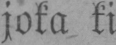joka ti
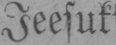leesuks
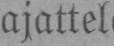lljattel»
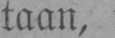tllllN, !
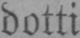dotti
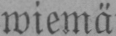miemä'
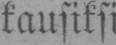kausiksi
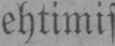ehtimis
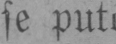se putl
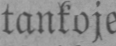tankoje
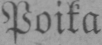Poika
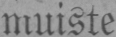nmiste
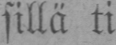sillä ti
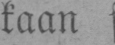taan s
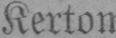Kerton
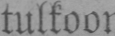tultooi,
